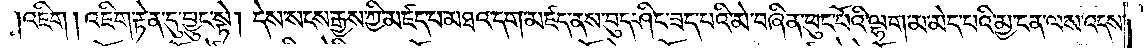འཇིག །འཇིག་རྟེན་དུ་བྱུང་སྟེ། དེས་སངས་རྒྱས་ཀྱི་མཛད་པ་མཐའ་དག་མཛད་ནས་བུད་ཤིང་ཟད་པའི་མེ་བཞིན་ཕུང་པོའི་ལྷག་མ་མེད་པའི་མྱ་ངན་ལས་འདས་
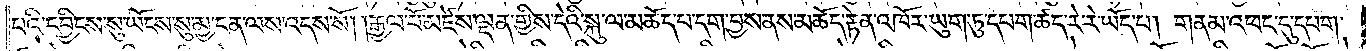པའི་དབྱིངས་སུ་ཡོངས་སུ་མྱ་ངན་ལས་འདས་སོ། །རྒྱལ་པོ་མཛེས་ལྡན་གྱིས་དེའི་སྐུ་ལ་མཆོད་པ་དག་བྱས་ནས་མཆོད་རྟེན་འཁོར་ཡུག་ཏུ་དཔག་ཚད་རེ་རེ་ཡོད་པ། གནམ་འཕང་དུ་དཔག་
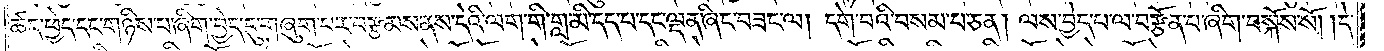ཚད་ཕྱེད་དང་གཉིས་པ་ཞིག་བྱེད་དུ་གཞུག་པར་བརྩམས་ནས་དེའི་ལག་གི་གླ་མི་དད་པ་དང་ལྡན་ཞིང་བཟང་ལ། དགེ་བའི་བསམ་པ་ཅན། ལས་བྱེད་པ་ལ་བརྩོན་པ་ཞིག་བསྐོས་སོ། །དེ་
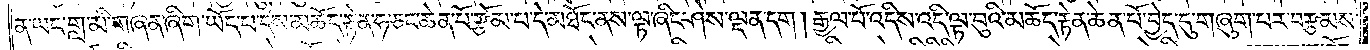ན་ཡང་གླ་མི་གཞན་ཞིག་ཡོད་པ་དེས་མཆོད་རྟེན་ཧ་ཅང་ཆེན་པོ་རྩོམ་པ་དེ་མཐོང་ནས་ལྟ་ཞིང་ཤེས་ལྡན་དག །རྒྱལ་པོ་འདིས་འདི་ལྟ་བུའི་མཆོད་རྟེན་ཆེན་པོ་བྱེད་དུ་གཞུག་པར་བརྩམས་
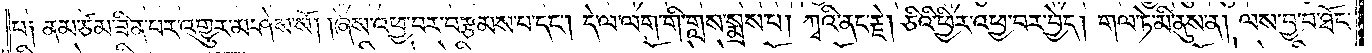པ༑ ནམ་ཙམ་ཟིན་པར་འགྱུར་མ་ཤེས་སོ། །ཞེས་འཕྱ་བར་བརྩམས་པ་དང༌། དེ་ལ་ལག་གི་གླས་སྨྲས་པ། ཀྭའི་ནང་རྗེ། ཅིའི་ཕྱིར་འཕྱ་བར་བྱེད། གལ་ཏེ་མི་ནུས་ན། ལས་བྱ་བ་ཐོང་
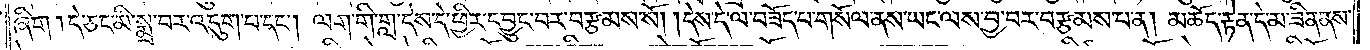ཞིག །དེ་ཅང་མི་སྨྲ་བར་འདུག་པ་དང༌། ལག་གི་གླ་དེས་དེ་ཕྱིར་དབྱུང་བར་བརྩམས་སོ། །དེས་དེ་ལ་བཟོད་པ་གསོལ་ནས་ཡང་ལས་བྱ་བར་བརྩམས་པ་ན། མཆོད་རྟེན་དེ་མ་ཟིན་ནས་
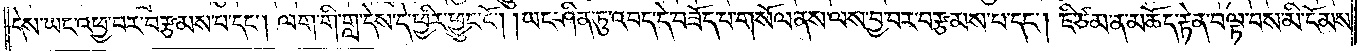དེས་ཡང་འཕྱ་བར་བརྩམས་པ་དང༌། ལག་གི་གླ་དེས་དེ་ཕྱིར་ཕྱུང་ངོ༌། །ཡང་ཤིན་ཏུ་འབད་དེ་བཟོད་པ་གསོལ་ནས་ལས་བྱ་བར་བརྩམས་པ་དང༌། ཇི་ཙམ་ན་མཆོད་རྟེན་བལྟ་བས་མི་ངོམས་
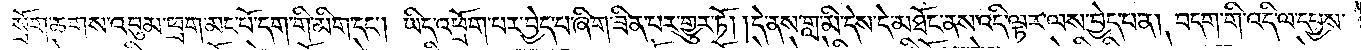པ༑<gap>སྲོག་ཆགས་འབུམ་ཕྲག་མང་པོ་དག་གི་མིག་དང༌། ཡིད་འཕྲོག་པར་བྱེད་པ་ཞིག་ཟིན་པར་གྱུར་ཏོ། །དེ་ནས་གླ་མི་དེས་དེ་མཐོང་ནས་འདི་ལྟར་ལས་བྱེད་པ་ན། བདག་གི་འདི་ལ་དཔྱས་
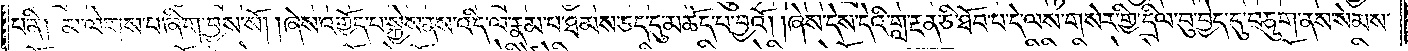པ་ནི། མ་ལེགས་པ་ཞིག་བྱས་སོ་།ཞེས་འགྱོད་པ་སྐྱེས་ནས་འདི་ལ་རྣམ་པ་ཐམས་ཅད་དུ་མཆོད་པ་བྱའོ། །ཞེས་དེས་དེའི་གླ་རྔན་ཅི་ཐོབ་པ་དེ་ལས་གསེར་གྱི་དྲིལ་བུ་བྱེད་དུ་བཅུག་ནས་སེམས་
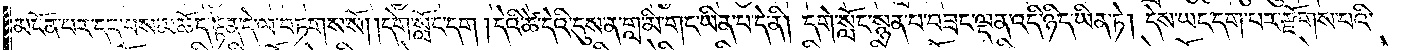མངོན་པར་དད་པས་མཆོད་རྟེན་དེ་ལ་བཏགས་སོ། །དགེ་སློང་དག །དེའི་ཚེ་དེའི་དུས་ན་གླ་མི་གང་ཡིན་པ་དེ་ནི། དགེ་སློང་སྙན་པ་བཟང་ལྡན་འདི་ཉིད་ཡིན་ཏེ། དེས་ཡང་དག་པར་རྫོགས་པའི་
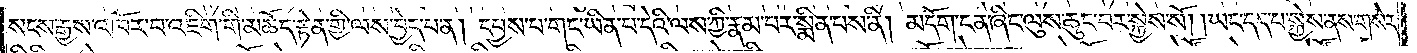སངས་རྒྱས་འཁོར་བ་འཇིག་གི་མཆོད་རྟེན་གྱི་ལས་བྱེད་པ་ན། དཔྱས་པ་གང་ཡིན་པ་དེའི་ལས་ཀྱི་རྣམ་པར་སྨིན་པས་ནི། མདོག་ངན་ཞིང་ལུས་ཆུང་བར་སྐྱེས་སོ། །ཡང་དད་པ་སྐྱེས་ནས་གསེར་
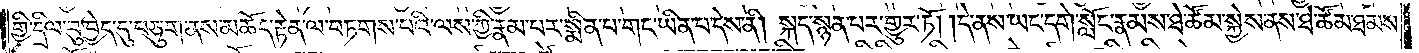གྱི་དྲིལ་བུ་བྱེད་དུ་བཅུག་ནས་མཆོད་རྟེན་ལ་བཏགས་པའི་ལས་ཀྱི་རྣམ་པར་སྨིན་པ་གང་ཡིན་པ་དེས་ནི། སྐད་སྙན་པར་གྱུར་ཏོ། །དེ་ནས་ཡང་དགེ་སློང་རྣམས་ཐེ་ཚོམ་སྐྱེས་ནས་ཐེ་ཚོམ་ཐམས་
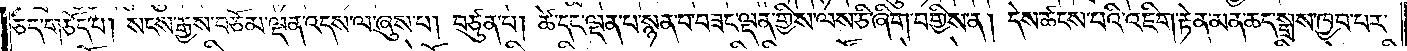ཅད་གཅོད་པ། སངས་རྒྱས་བཅོམ་ལྡན་འདས་ལ་ཞུས་པ། བཙུན་པ། ཚེ་དང་ལྡན་པ་སྙན་པ་བཟང་ལྡན་གྱིས་ལས་ཅི་ཞིག་བགྱིས་ན། དེས་ཚངས་པའི་འཇིག་རྟེན་མན་ཆད་སྒྲས་ཁྱབ་པར་
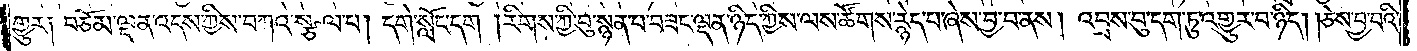གྱུར། བཅོམ་ལྡན་འདས་ཀྱིས་བཀའ་སྩལ་པ། དགེ་སློང་དག །རིགས་ཀྱི་བུ་སྙན་པ་བཟང་ལྡན་ཉིད་ཀྱིས་ལས་ཚོགས་རྙེད་པ་ཞེས་བྱ་བ་ནས། འབྲས་བུ་དག་ཏུ་འགྱུར་བ་ཉིད། །ཅེས་བྱ་བའི་
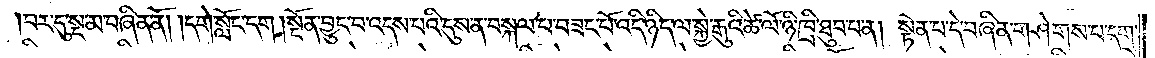བར་དུ་སྔ་མ་བཞིན་ནོ། །དགེ་སློང་དག །སྔོན་བྱུང་བ་འདས་པའི་དུས་ན་བསྐལ་པ་བཟང་པོ་འདི་ཉིད་ལ་སྐྱེ་རྒུའི་ཚེ་ལོ་ཉི་ཁྲི་ཐུབ་པ་ན། སྟེན་པ་དེ་བཞིན་གཤེགས་པ་དགྲ་
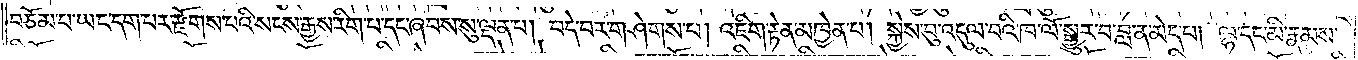བཅོམ་པ་ཡང་དག་པར་རྫོགས་པའི་སངས་རྒྱས་རིག་པ་དང་ཞབས་སུ་ལྡན་པ། བདེ་བར་གཤེགས་པ། འཇིག་རྟེན་མཁྱེན་པ། སྐྱེས་བུ་འདུལ་བའི་ཁ་ལོ་སྒྱུར་བ་བླ་ན་མེད་པ། ལྷ་དང་མི་རྣམས་
